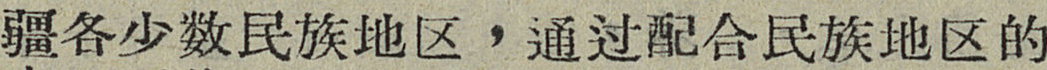疆各少数民族地区，通过配合民族地区的
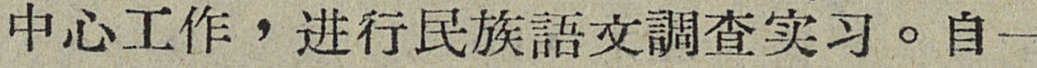中心工作，进行民族語文調查实习。自一
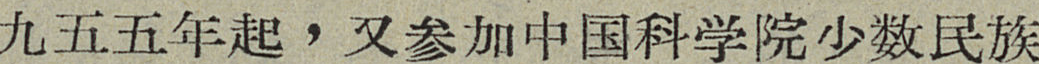九五五年起，又参加中国科学院少数民族
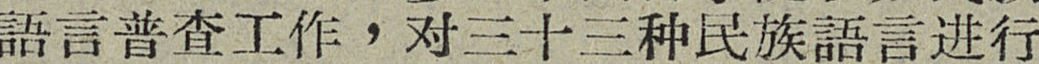語言普查工作，对三十三种民族語言进行
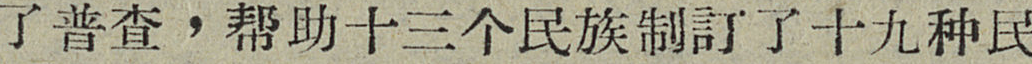了普查，帮助十三个民族制訂了十九种民
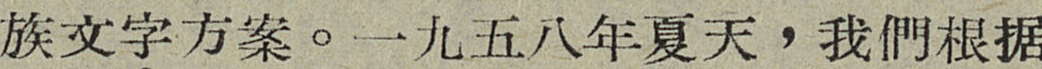族文字方案。一九五八年夏天，我們根据
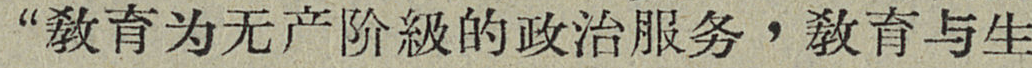“敎育为无产阶級的政治服务，敎育与生
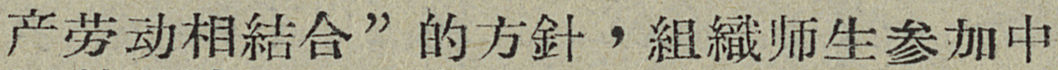产劳动相結合”的方針，組織师生参加中
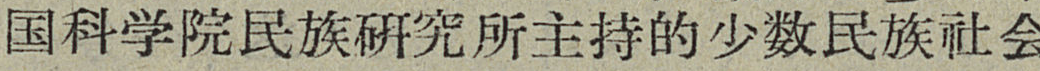国科学院民族研究所主持的少数民族社会
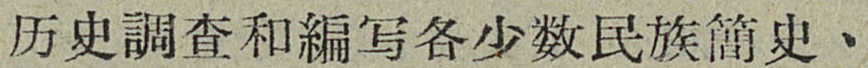历史調查和編写各少数民族簡史、
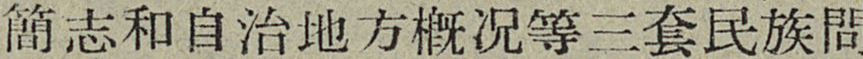簡志和自治地方概况等三套民族問
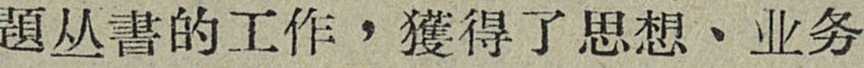題丛書的工作，獲得了思想、业务
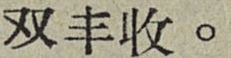双丰收。
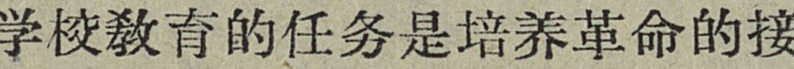学校敎育的任务是培养革命的接
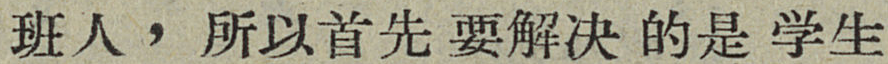班人，所以首先要解决的是学生
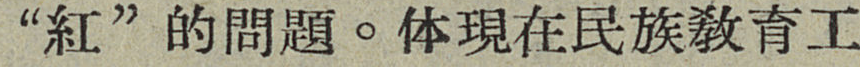“紅”的問題。体現在民族敎育工
